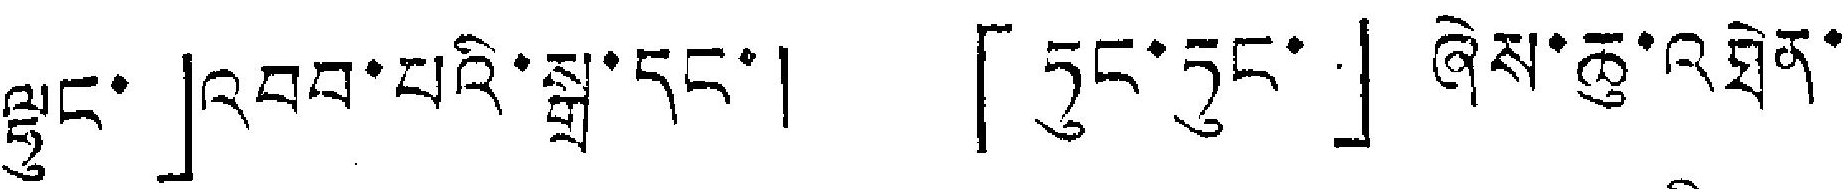ལྷུང་」འབབ་པའི་སྒྲ་དང་། 「ཏུང་ཏུང་」ཞེས་ཆུ་འཐེན་
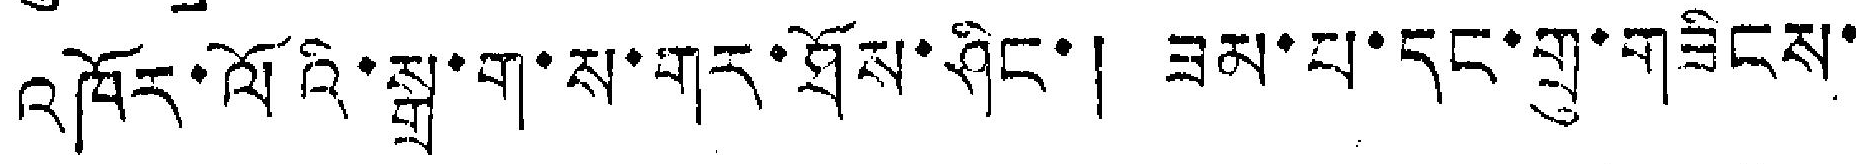འཁོར་ལོའི་སྒྲ་ག་ས་གར་ཐོས་ཤིང་། ཟམ་པ་དང་གྲུ་གཟིངས་
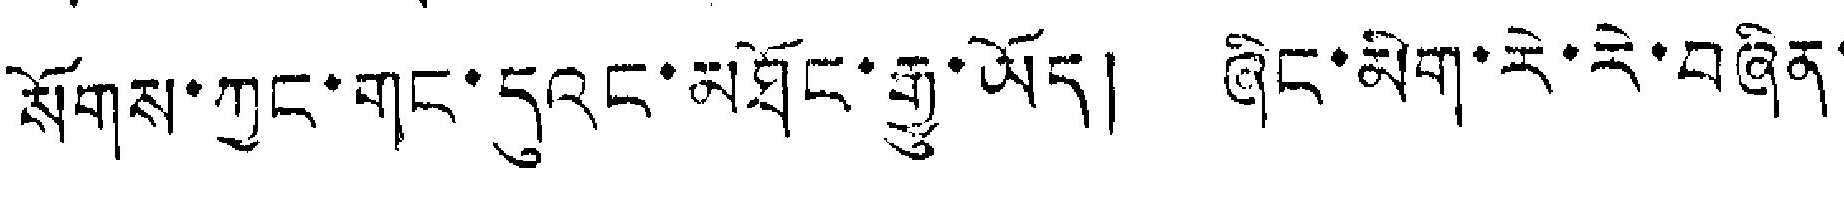སོགས་ཀྱང་གང་དུའང་མཐོང་རྒྱུ་ཡོད། ཞིང་མིག་རེ་རེ་བཞིན་
